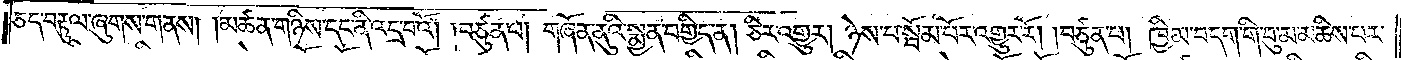ཅད་བརྟུལ་ཞུགས་གནས། །མཚན་གཉིས་དང་ནི་འདྲ་བའོ། །བཙུན་པ། གཞོན་ནུའི་སྨྱན་བགྱིད་ན། ཅིར་འགྱུར། ཉེས་པ་སྦོམ་པོར་འགྱུར་རོ། །བཙུན་པ། ཁྱིམ་བདག་གི་བུ་མ་མཆིས་པར་
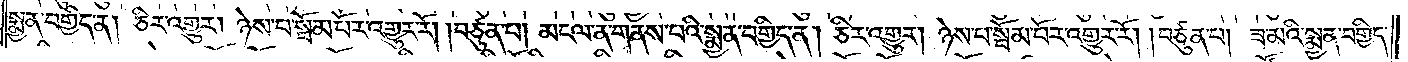སྨྱན་བགྱིད་ན། ཅིར་འགྱུར། ཉེས་པ་སྦོམ་པོར་འགྱུར་རོ། །བཙུན་པ། མངལ་ན་གནས་པའི་སྨྱན་བགྱིད་ན། ཅིར་འགྱུར། ཉེས་པ་སྦོམ་པོར་འགྱུར་རོ། །བཙུན་པ། ཟ་མའི་སྨྱན་བགྱིད་
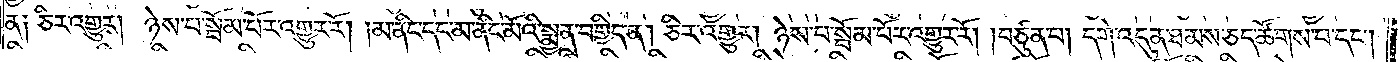ན༑ ཅིར་འགྱུར། ཉེས་པ་སྦོམ་པོར་འགྱུར་རོ། །མ་ནིང་དང་མ་ནིང་མོའི་སྨྱན་བགྱིད་ན། ཅིར་འགྱུར། ཉེས་པ་སྦོམ་པོར་འགྱུར་རོ། །བཙུན་པ། དགེ་འདུན་ཐམས་ཅད་ཚོགས་པ་དང༌།
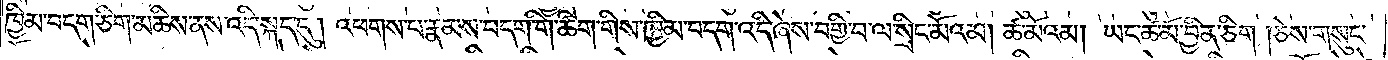ཁྱིམ་བདག་ཅིག་མཆིས་ནས་འདི་སྐད་དུ། འཕགས་པ་རྣམས་བདག་གི་ཚིག་གིས་ཁྱིམ་བདག་འདི་ཞེས་བགྱི་བ་ལ་སྲིང་མོའམ། ཚ་མོའམ། ཡང་ཚ་མོ་བྱིན་ཅིག །ཅེས་གསུང་
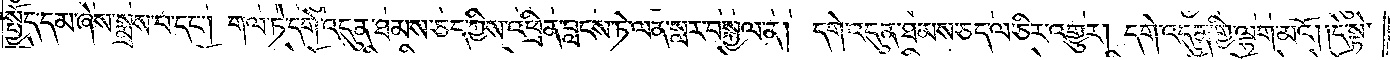སྤྱོད་དམ་ཞེས་སྨྲས་པ་དང༌། གལ་ཏེ་དགེ་འདུན་ཐམས་ཅད་ཀྱིས་འཕྲིན་བླངས་ཏེ་ལན་སླར་བསྐྱལ་ན། དགེ་འདུན་ཐམས་ཅད་ལ་ཅིར་འགྱུར། དགེ་འདུན་གྱི་ལྷག་མའོ། །དེ་སྟེ་
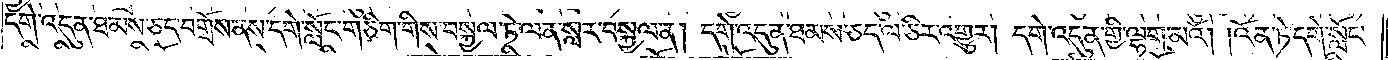དགེ་འདུན་ཐམས་ཅད་བགྲོས་ནས་དགེ་སློང་གཅིག་གིས་བསྐྱལ་ཏེ་ལན་སླར་བསྐྱལ་ན། དགེ་འདུན་ཐམས་ཅད་ལ་ཅིར་འགྱུར། དགེ་འདུན་གྱི་ལྷག་མའོ། །འོན་ཏེ་དགེ་སློང་
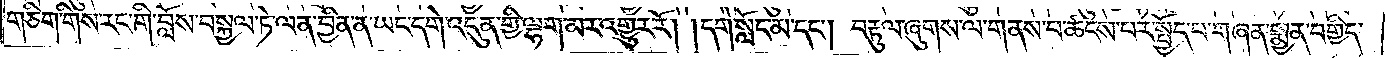གཅིག་གིས་རང་གི་བློན་བསྐྱལ་ཏེ་ལན་བྱིན་ན་ཡང་དགེ་འདུན་གྱི་ལྷག་མར་འགྱུར་རོ། །དགེ་སློང་མ་དང༌། བརྟུལ་ཞུགས་ལ་གནས་པ་ཚངས་པར་སྤྱོད་པ་གཞན་སྨྱན་བགྱིད་
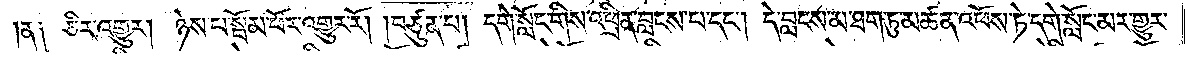།ན༑ ཅིར་འགྱུར། ཉེས་པ་སྦོམ་པོར་འགྱུར་རོ། །བཙུན་པ། དགེ་སློང་གིས་འཕྲིན་བླངས་པ་དང༌། དེ་བླངས་མ་ཐག་ཏུ་མཚན་འཕོས་ཏེ་དགེ་སློང་མར་གྱུར་
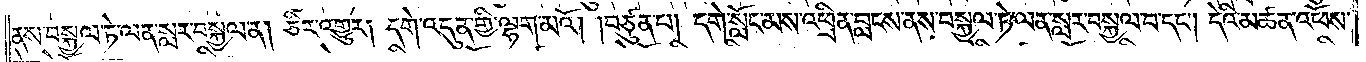ནས་བསྐྱལ་ཏེ་ལན་སླར་བསྐྱལ་ན། ཅིར་འགྱུར། དགེ་འདུན་གྱི་ལྷག་མའོ། །བཙུན་པ། དགེ་སློང་མས་འཕྲིན་བླངས་ནས་བསྐྱལ་ཏེ་ལན་སླར་བསྐྱལ་བ་དང༌། དེའི་མཚན་འཕོས་
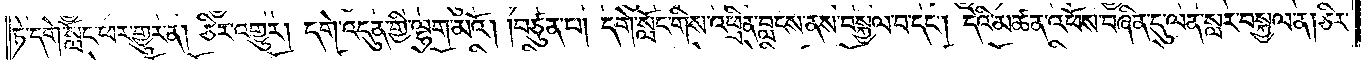ཏེ་དགེ་སློང་ཕར་གྱུར་ན། ཅིར་འགྱུར། དགེ་འདུན་གྱི་ལྷག་མའོ། །བཙུན་པ། དགེ་སློང་གིས་འཕྲིན་བླངས་ནས་བསྐྱལ་བ་དང༌། དེའི་མཚན་འཕོས་བཞིན་དུ་ལན་སླར་བསྐྱལ་ན། ཅིར་
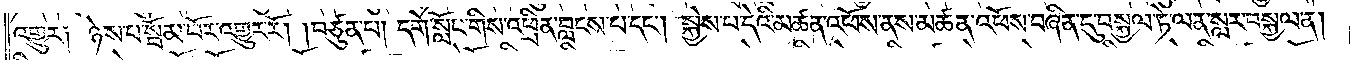འགྱུར༑ ཉེས་པ་སྦོམ་པོར་འགྱུར་རོ། །བཙུན་པ། དགེ་སློང་གིས་འཕྲིན་བླངས་པ་དང༌། སྐྱེས་པ་དེའི་མཚན་འཕོས་ནས་མཚན་འཕོས་བཞིན་དུ་བསྐྱལ་ཏེ་ལན་སླར་བསྐྱལ་ན།
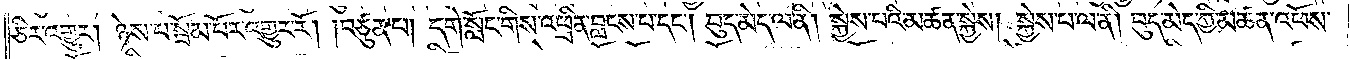ཅིར་འགྱུར། ཉེས་པ་སྦོམ་པོར་འགྱུར་རོ། །བཙུན་པ། དགེ་སློང་གིས་འཕྲིན་བླངས་པ་དང༌། བུད་མེད་ལ་ནི། སྐྱེས་པའི་མཚན་སྐྱེས། སྐྱེས་པ་ལ་ནི། བུད་མེད་ཀྱི་མཚན་འཕོས་
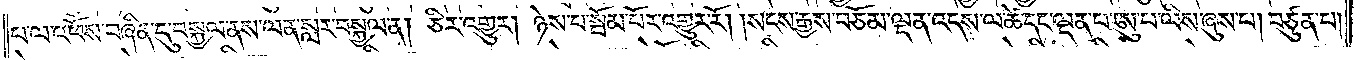པ་ལ་འཕོས་བཞིན་དུ་བསྐྱལ་ནས་ལན་སླར་བསྐྱལ་ན། ཅིར་འགྱུར། ཉེས་པ་སྦོམ་པོར་འགྱུར་རོ། །སངས་རྒྱས་བཅོམ་ལྡན་འདས་ལ་ཚེ་དང་ལྡན་པ་ཨུ་པ་ལིས་ཞུས་པ། བཙུན་པ།
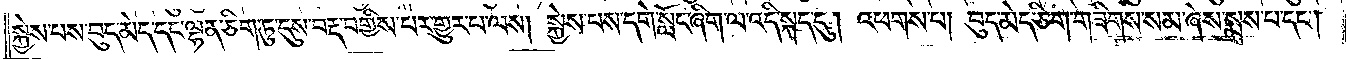སྐྱེས་པས་བུད་མེད་དང་ལྷན་ཅིག་ཏུ་དུས་བརྡ་བགྱིས་པར་གྱུར་པ་ལས། སྐྱེས་པས་དགེ་སློང་ཞིག་ལ་འདི་སྐད་དུ། འཕགས་པ། བུད་མེད་ཅིག་གཟིགས་སམ་ཞེས་སྨྲས་པ་དང༌།
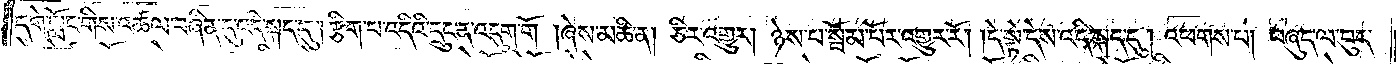དགེ་སློང་གིས་འཚལ་བཞིན་དུ་འདི་སྐད་དུ། རྩིག་པ་འདིའི་དྲུང་ན་འདུག་གོ །ཞེས་མཆི་ན། ཅིར་འགྱུར། ཉེས་པ་སྦོམ་པོར་འགྱུར་རོ། །དེ་སྟེ་དེས་འདི་སྐད་དུ། འཕགས་པ། བཞུད་ལ་བུད་
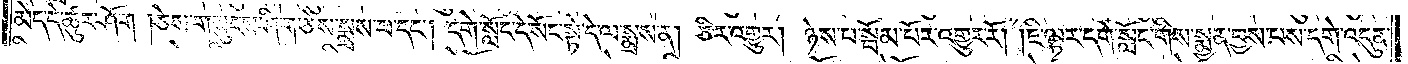མེད་དེ་ཚུར་ཤོག །ཅེས་གསུངས་ཤིག་ཅེས་སྲ་སྤ་དང༌། དགེ་སློང་དེ་སོང་སྟེ་དེ་ལ་སྨྲས་ན། ཅིར་འགྱུར། ཉེས་པ་སྦོམ་པོར་འགྱུར་རོ། །ཇི་ལྟར་དགེ་སློང་གིས་སྨྱན་བྱས་པས་དགེ་འདུན་
